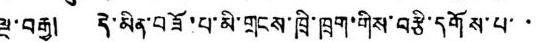ལྔ་བརྒྱ། དེ་མིན་བཟོ་པ་མི་གྲངས་ཁྲི་ཁྲག་གིས་བརྩི་དགོས་པ་་
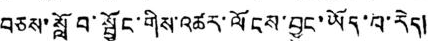བཅས་སློབ་སྦྱོང་གིས་འཚར་ལོངས་བྱུང་ཡོད་པ་རེད།
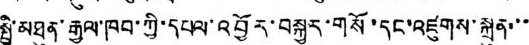སྤྱི་མཐུན་རྒྱལ་ཁབ་ཀྱི་དཔལ་འབྱོར་བསྐྱར་གསོ་དང་འཛུགས་སྐྲུན་་་
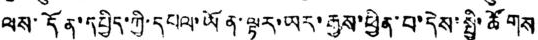ལས་དོན་དཔྱིད་ཀྱི་དཔལ་ཡོན་ལྟར་ཡར་རྒྱས་ཕྱིན་པ་དེས་སྤྱི་ཚོགས
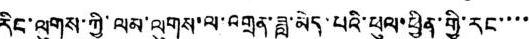རིང་ལུགས་ཀྱི་ལམ་ལུགས་ལ་འགྲན་ཟླ་མེད་པའི་ཕུལ་ཕྱིན་ཀྱི་རང་་་་
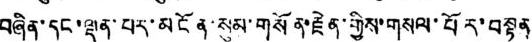བཞིན་དང་ལྡན་པར་མངོན་སུམ་གསོན་རྗེན་གྱིས་གསལ་པོར་བསྟན
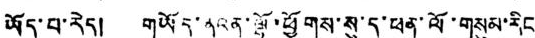ཡོད་པ་རེད། གཡོད་ནའན་ལྷོ་ཕྱོགས་སུ་ད་ཕན་ལོ་གསུམ་རིང
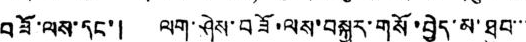བཟོ་ལས་དང་། ལག་ཤེས་བཟོ་ལས་བསྐྱར་གསོ་བྱེད་མ་ཐུབ་་་
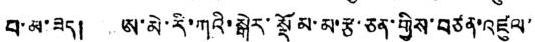བ་མ་ཟད། ཨ་མེ་རི་ཀའི་སྒེར་སྡོམ་མ་རྩ་ཅན་གྱིས་བཙན་འཛུལ་
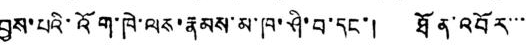བྱས་པའི་འོག་ཁེ་ལས་རྣམས་མ་ཁ་ཤི་བ་དང་། ཐོན་འབོར་་་
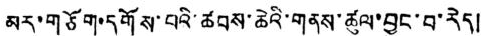མར་གཅོག་དགོས་པའི་ཚབས་ཆེའི་གནས་ཚུལ་བྱུང་བ་རེད།
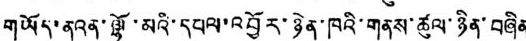གཡོད་ནའན་ལྷོ་མའི་དཔལ་འབྱོར་ཉེན་ཁའི་གནས་ཚུལ་ཉིན་བཞིན
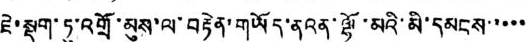ཇེ་སྡུག་ཏུ་འགྲོ་མུས་ལ་བརྟེན་གཡོད་ནའན་ལྷོ་མའི་མི་དམངས་་་་་
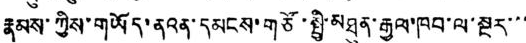རྣམས་ཀྱིས་གཡོད་ནའན་དམངས་གཙོ་སྤྱི་མཐུན་རྒྱལ་ཁབ་ལ་སྔར་་་
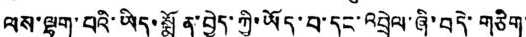ལས་ལྷག་པའི་ཡིད་སྨོན་བྱེད་ཀྱི་ཡོད་པ་དང་འབྲེལ་ཞི་བདེ་གཅིག་
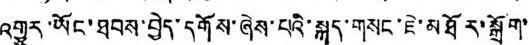འགྱུར་ཡོང་ཐབས་བྱེད་དགོས་ཞེས་པའི་སྐད་གསང་ཇེ་མཐོར་སྐྲོག་
